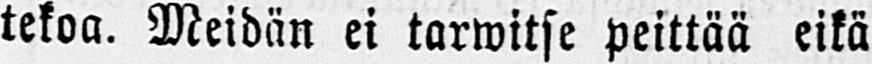tekoa. Meidän ei tarvitse peittää eikä
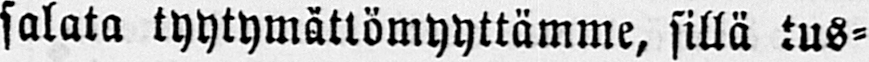salata tyytymättömyyttämme, sillä tus-
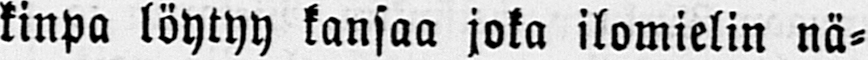kinpa löytyy kansaa joka ilomielin nä-
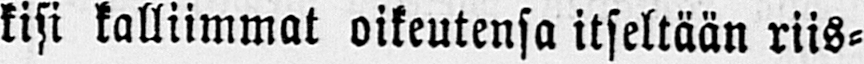kisi kalliimmat oikeutensa itseltään riis-
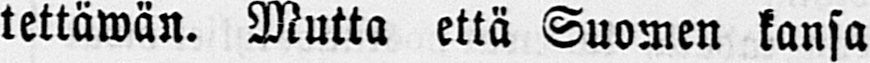tettäwän. Mutta että Suomen kansa
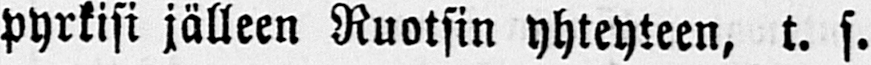pyrkisi jälleen Ruotsin yhteyteen, t. s.
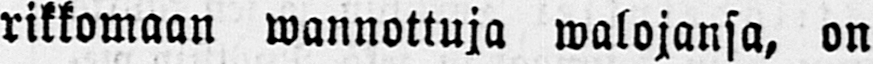rikkomaan wannottuja walojansa, on
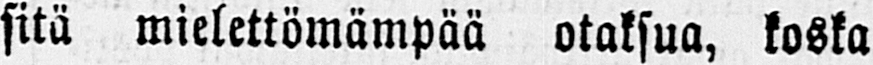sitä mielettömämpää otaksua, koska
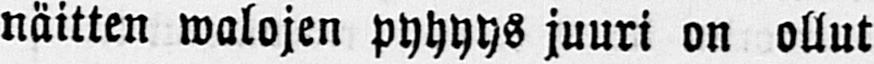näitten walojen pyhyys juuri on ollut
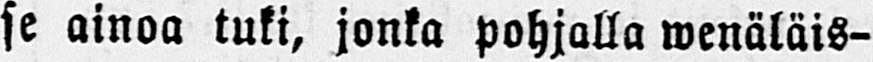se ainoa tuki, jonka pohjalla wenäläis-
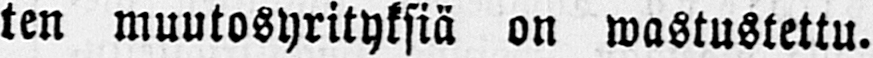ten muutosyrityksiä on wastustettu.
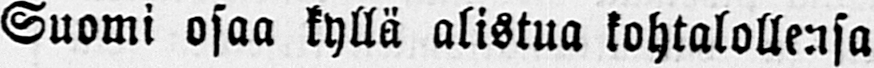Suomi osaa kyllä alistua kohtalollensa
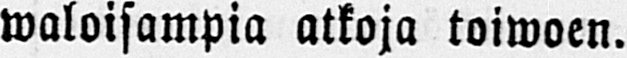waloisampia atkoja toiwoen.
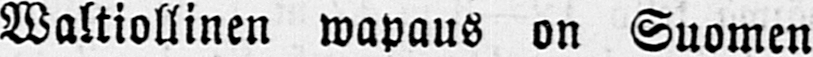Waltiollinen wapaus on Suomen
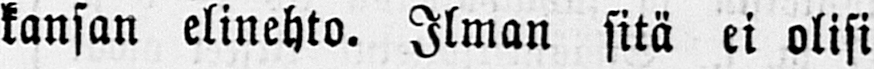kansan elinehto. Ilman sitä ei olisi
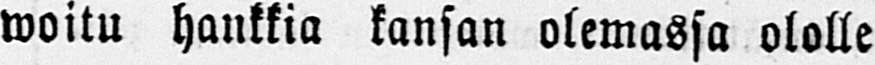woitu hankkia kansan olemassa ololle
